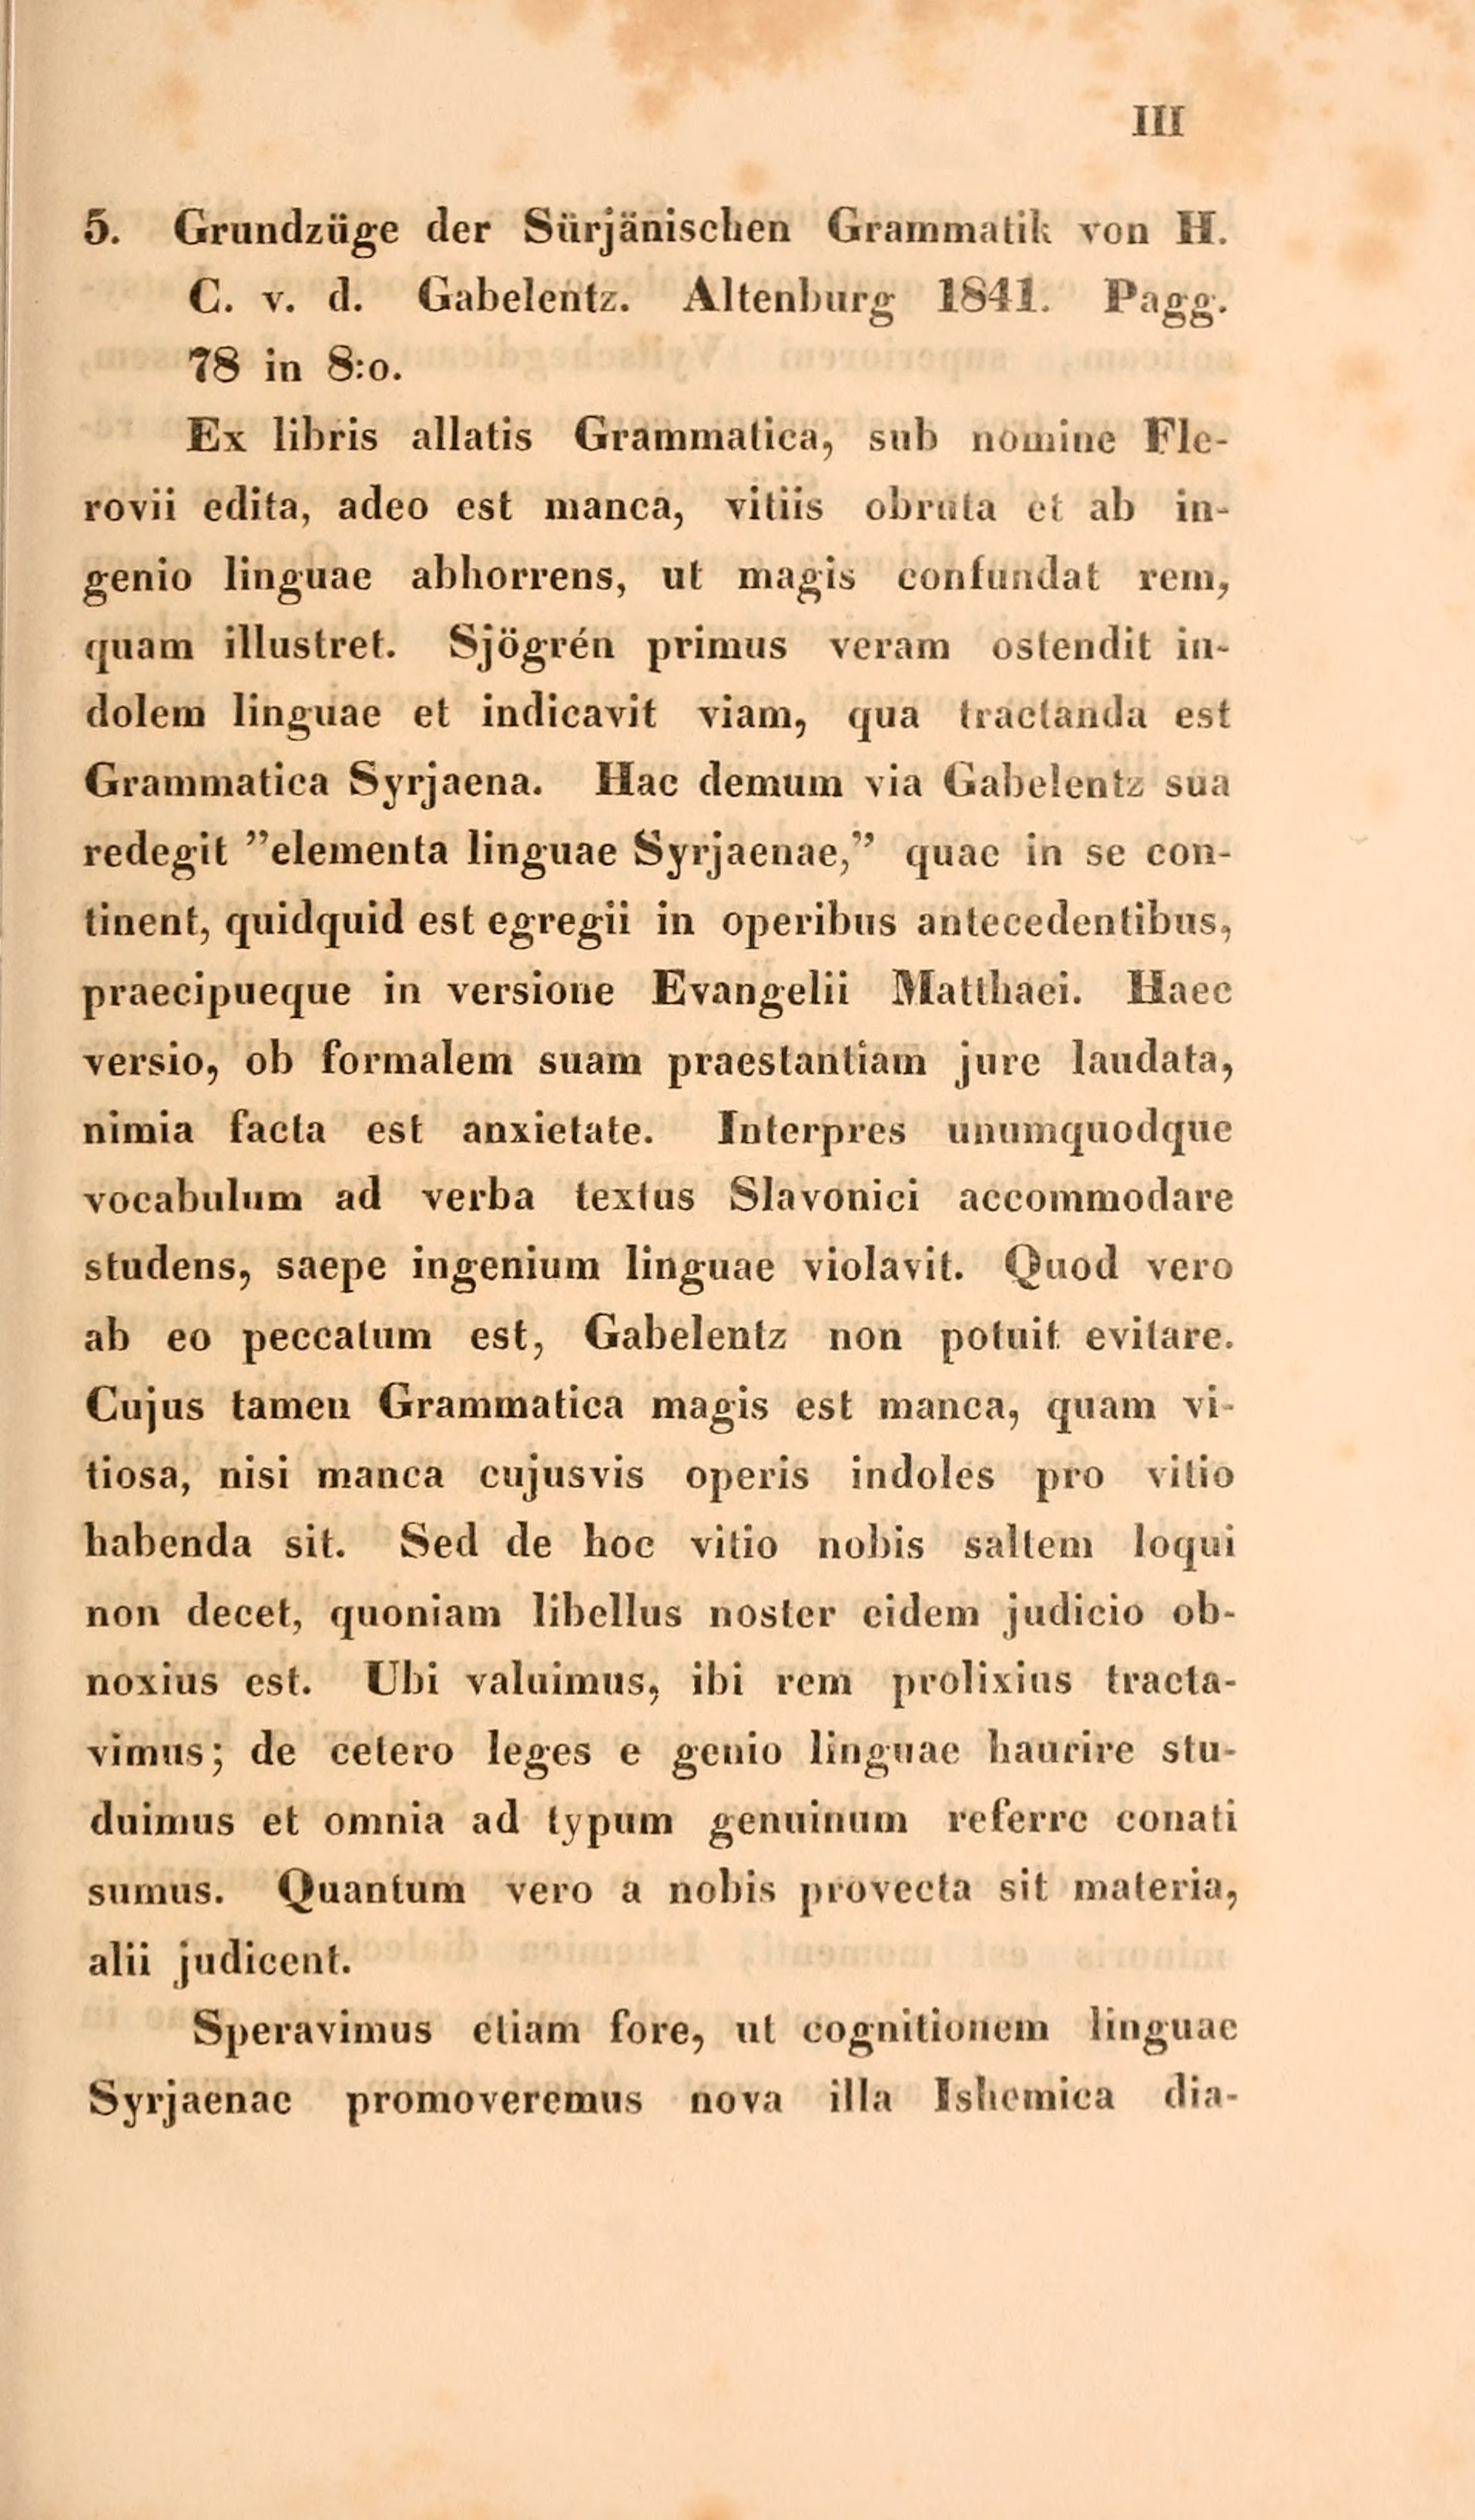III
5. Grundzüge der Sürjänischen Grammatik von H.
C. v. d. Gabelentz. Altenburg 1841. Pagg
78 in 8:o.
Ex libris allatis Grammatica, sub nomine Fle-
rovii edita, adeo est manca, vitiis obruta et ab in-
genio linguae abhorrens, ut magis confundat rem,
quam illustret. Sjögrén primus veram ostendit in-
dolem linguae et indicavit viam, qua tractanda est
Grammatica Syrjaena. Hac demum via Gabelentz sua
redegit "elementa linguae Syrjaenae," quae in se con-
tinent, quidquid est egregii in operibus antecedentibus,
praecipueque in versione Evangelii Matthaei. Haec
versio, ob formalem suam praestantiam jure laudata,
nimia facta est anxietate. Interpres unumquodque
vocabulum ad verba textus Slavonici accommodare
studens, saepe ingenium linguae violavit. Quod vero
ab eo peccatum est, Gabelentz non potuit evitare.
Cujus tamen Grammatica magis est manca, quam vi-
tiosa, nisi manca cujusvis operis indoles pro vitio
habenda sit. Sed de hoc vitio nobis saltem loqui
non decet, quoniam libellus noster eidem judicio ob-
noxius est. Ubi valuimus, ibi rem prolixius tracta-
vimus; de cetero leges e genio linguae haurire stu-
duimus et omnia ad typum genuinum referre conati
sumus. Quantum vero a nobis provecta sit materia,
alii judicent.
Speravimus etiam fore, ut cognitionem linguae
Syrjaenae promoveremus nova illa Ishemica dia-
